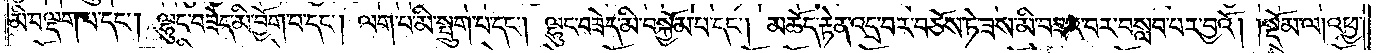མི་བལྡག་པ་དང༌། ལྷུང་བཟེད་མི་བྱོག་པ་དང༌། ལག་པ་མི་སྤྲུག་པ་དང༌། ལྷུང་བཟེད་མི་བསྐྱོམ་པ་དང༌། མཆོད་རྟེན་འདྲ་བར་བཅོས་ཏེ་ཟས་མི་བཟའ་བར་བསླབ་པར་བྱའོ། །སྡོམ་ལ། འཕྱ་
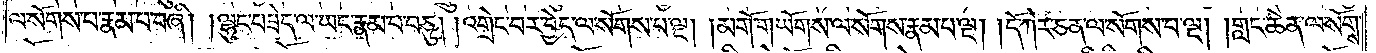ལ་སོགས་པ་རྣམ་པ་བཞི། །ལྷུང་བཟེད་ལ་ཡང་རྣམ་པ་བཅུ། །འགྲེང་བར་བྱེད་ལ་སོགས་པ་ལྔ། །མགོ་གཡོགས་ལ་སོགས་རྣམ་པ་ལྔ། །དོ་ཀེར་ཅན་ལ་སོགས་པ་ལྔ། །གླང་ཆེན་ལ་སོགས་
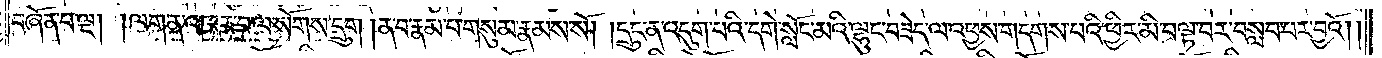བཞོན་པ་ལྔ། །ལག་ན་འཁར་བ་ལ་སོགས་དྲུག །ན་བ་རྣམ་པ་གསུམ་རྣམས་སོ། །དྲུང་ན་འདུག་པའི་དགེ་སློང་མའི་ལྷུང་བཟེད་ལ་འཕྱས་གདགས་པའི་ཕྱིར་མི་བལྟ་བར་བསླབ་པར་བྱའོ། །
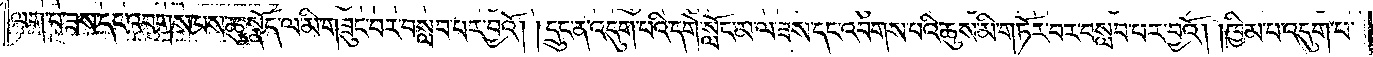ལག་པ་ཟས་དང་འབགས་པས་ཆུ་སྣོད་ལ་མི་གཟུང་བར་བསླབ་པར་བྱའོ། །དྲུང་ན་འདུག་པའི་དགེ་སློང་མ་ལ་ཟས་དང་འབགས་པའི་ཆུས་མི་གཏོར་བར་བསླབ་པར་བྱའོ། །ཁྱིམ་པ་འདུག་པ་
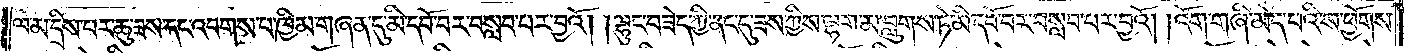ལམ་དྲིས་པར་ཆུ་ཟས་དང་འབགས་པ་ཁྱིམ་གཞན་དུ་མི་དབོ་བར་བསླབ་པར་བྱའོ། །ལྷུང་བཟེད་ཀྱི་ནང་དུ་ཟས་ཀྱིས་ལྷག་མ་བླུགས་ཏེ་མི་དབོ་བར་བསླབ་པར་བྱའོ། །འོག་གཞི་མེད་པའི་ས་ཕྱོགས་
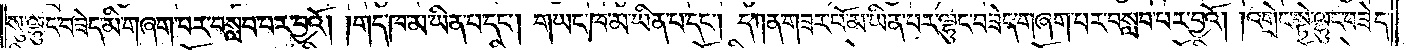སུ་ལྷུང་བཟེད་མི་གཞག་པར་བསླབ་པར་བྱའོ། །གད་ཁ་མ་ཡིན་པ་དང༌། གཡང་ཁ་མ་ཡིན་པ་དང༌། དཀན་གཟར་པོ་མ་ཡིན་པར་ལྷུང་བཟེད་གཞག་པར་བསླབ་པར་བྱའོ། །འགྲེང་སྟེ་ལྷུང་བཟེད་
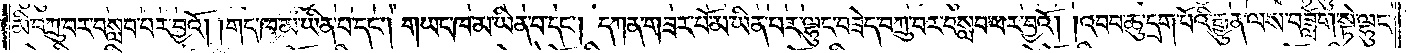མི་བཀྲུ་བར་བསླབ་པར་བྱའོ། །གད་ཁ་མ་ཡིན་པ་དང༌། གཡང་ཁ་མ་ཡིན་པ་དང༌། དཀན་གཟར་པོ་མ་ཡིན་པར་ལྷུང་བཟེད་བཀྲུ་བར་བསླབ་པར་བྱའོ། །འབབ་ཆུ་དྲག་པོའི་རྒྱུན་ལས་བཟློག་སྟེ་ལྷུང་
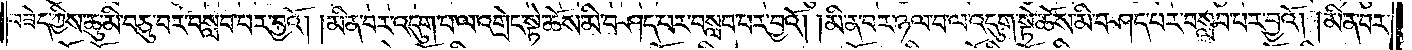བཟེད་ཀྱིས་ཆུ་མི་བཅུ་བར་བསླབ་པར་བྱའོ། །མི་ན་བར་འདུག་པ་ལ་འགྲེང་སྟེ་ཆོས་མི་བཤད་པར་བསླབ་པར་བྱའོ། །མི་ན་བར་ཉལ་བ་ལ་འདུག་སྟེ་ཆོས་མི་བཤད་པར་བསླབ་པར་བྱའོ། །མི་ན་བར་
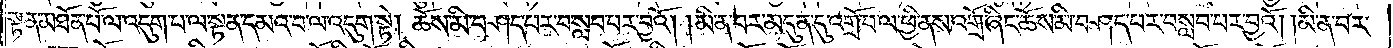སྟན་མཐོན་པོ་ལ་འདུག་པ་ལ་སྟན་དམའ་བ་ལ་འདུག་སྟེ། ཆོས་མི་བཤད་པར་བསླབ་པར་བྱའོ། །མི་ན་བར་མདུན་དུ་འགྲོ་བ་ལ་ཕྱི་ནས་འགྲོ་ཞིང་ཆོས་མི་བཤད་པར་བསླབ་པར་བྱའོ། །མི་ན་བར་
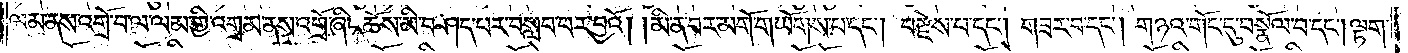ལམ་ནས་འགྲོ་བ་ལ་ལམ་གྱི་འགྲམ་ནས་འགྲོ་ཞིང་ཆོས་མི་བཤད་པར་བསླབ་པར་བྱའོ། །མི་ན་བར་མགོ་གཡོགས་པ་དང༌། བརྫེས་པ་དང༌། གཟེར་བ་དང༌། གཉའ་གོང་དུ་བསྣོལ་བ་དང༌། ལྟག་
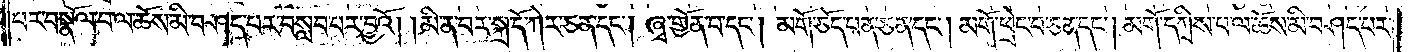བར་བསྣོལ་བ་ལ་ཆོས་མི་བཤད་པར་བསླབ་པར་བྱའོ། །མི་ན་བར་སྐྲ་དོ་ཀེར་ཅན་དང༌། ཞྭ་གྱོན་པ་དང༌། མགོ་ཅོད་པན་ཅན་དང༌། མགོ་ཕྲེང་བ་ཅན་དང༌། མགོ་དཀྲིས་པ་ལ་ཆོས་མི་བཤད་པར་
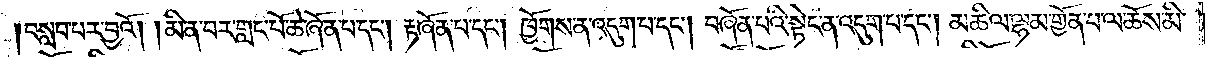།བསླབ་པར་བྱའོ། །མི་ན་བར་གླང་པོ་ཆེ་ཞོན་པ་དང༌། རྟ་ཞོན་པ་དང༌། ཁྱོགས་ན་འདུག་པ་དང༌། བཞོན་པའི་སྟེང་ན་འདུག་པ་དང༌། མཆིལ་ལྷམ་གྱོན་པ་ལ་ཆོས་མི་
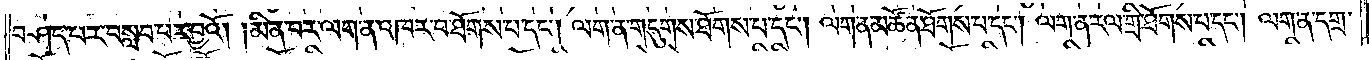བཤད་པར་བསླབ་པར་བྱའོ། །མི་ན་བར་ལག་ན་འཁར་བ་ཐོགས་པ་དང༌། ལག་ན་གདུགས་ཐོགས་པ་དང༌། ལག་ན་མཚོན་ཐོགས་པ་དང༌། ལག་ན་རལ་གྲི་ཐོགས་པ་དང༌། ལག་ན་དགྲ་
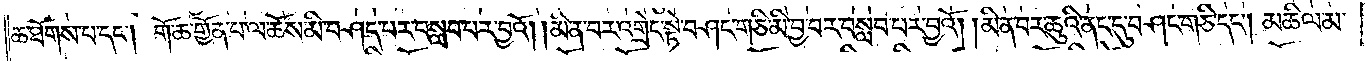ཆ་ཐོགས་པ་དང༌། གོ་ཆ་གྱོན་པ་ལ་ཆོས་མི་བཤད་པར་བསླབ་པར་བྱའོ། །མི་ན་བར་འགྲེང་སྟེ་བཤང་གཅི་མི་བྱ་བར་བསླབ་པར་བྱའོ། །མི་ན་བར་ཆུའི་ནང་དུ་བཤང་གཅི་དང༌། མཆིལ་མ་
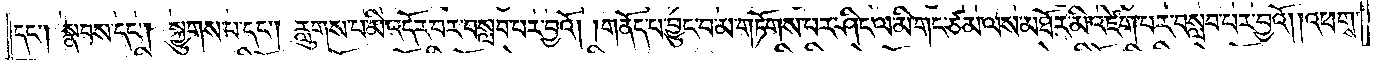དང༌། སྣབས་དང༌། སྐྱུགས་པ་དང༌། རླུགས་པ་མི་འདོར་བར་བསླབ་པར་བྱའོ། །གནོད་པ་བྱུང་བ་མ་གཏོགས་པར་ཤིང་ལ་མི་གང་ཙམ་ལས་མཐོར་མི་འཛེག་པར་བསླབ་པར་བྱའོ། །འཕགས་
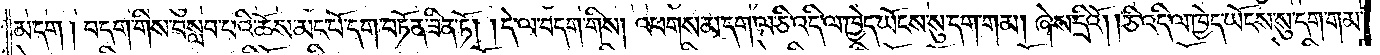མ་དག །བདག་གིས་བསླབ་པའི་ཆོས་མང་པོ་དག་བཏོན་ཟིན་ཏོ། །དེ་ལ་བདག་གིས། འཕགས་མ་དག་ལ་ཅི་འདི་ལ་ཁྱེད་ཡོངས་སུ་དག་གམ། ཞེས་དྲིའོ། །ཅི་འདི་ལ་ཁྱེད་ཡོངས་སུ་དག་གམ་
